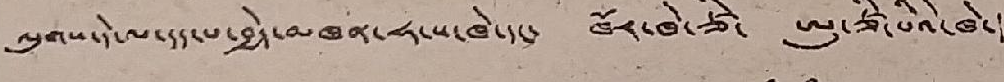ལུགས་དེ་ལ་དད་པ་བྱེད་མཁན་ཧ་ས་ཁེ་དང་ ཁོར་ཁེ་ཙེ་ ཨུ་ཙི་པིའི་ཁེ་
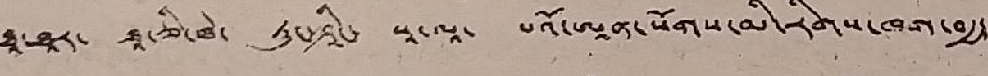ཐཱ་ཐཱར་ ཐཱ་ཅི་ཁེ་ ཏུང་ཤིང་ སཱ་ལཱ་ པའོ་ཨཱན་སོགས་མི་རིགས་ཁག་བརྒྱད་
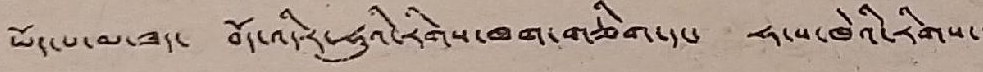ཡོད་པ་མ་ཟད་ བོད་འདིར་ཧུའི་རིགས་ཁག་གཅིག་དང་ ཧ་ས་ཁེའི་རིགས་་་
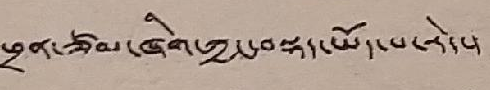ཕྲན་ཙམ་ཞིག་ཀྱང་བསྡད་ཡོད་པ་རེད་།
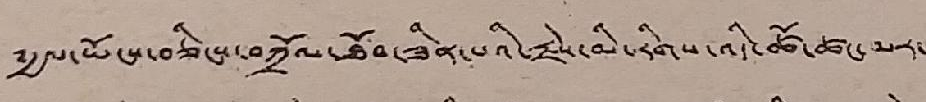༸རྒྱལ་ཡོངས་བཅིངས་བཀྲོལ་ཐོབ་ཟིན་པའི་རྗེས་མི་རིགས་འདི་ཚོ་ཚང་མར་
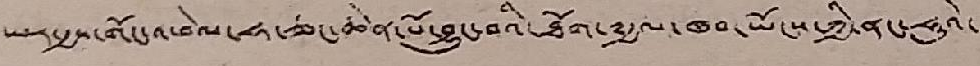ཡར་རྒྱས་གོང་འཕེལ་ཧ་ཅང་ཆེན་པོ་བྱུང་བའི་ཐོག་༸རྒྱལ་ཁབ་ཡོངས་ཀྱི་ནང་ཧུའེ་
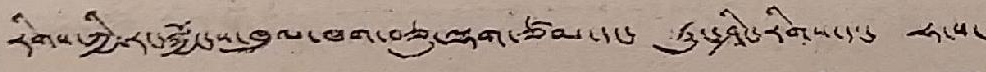རིགས་ཀྱི་རང་སྐྱོངས་ཁུལ་ཁག་བཅུ་ལྷག་ཙམ་དང་ ཏུང་ཤིང་རིགས་དང་ ཧ་ས་
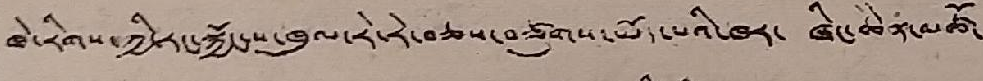ཁེ་རིགས་ཀྱི་རང་སྐྱོང་ས་ཁུལ་རེ་རེ་བཅས་བཙུགས་ཡོད་པའི་ཁར་ ཞིང་ཆེན་མཚོ་
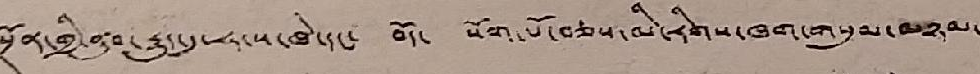སྔོན་གྱི་ནུབ་རྒྱུད་དུ་ཧ་ས་ཁེ་དང་ བོད་ སོག་པོ་བཅས་མི་རིགས་ཁག་གསུམ་མཉམ་
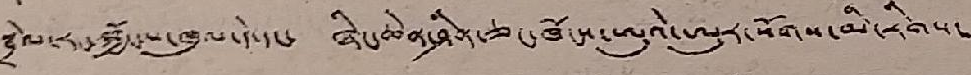སྦྲེལ་རང་སྐྱོང་ས་ཁུལ་དེ་དང་ ཞིང་ཆེན་ཤིན་ཅང་ཁོངས་ཨུའེ་ཨུར་སོགས་མི་རིགས་
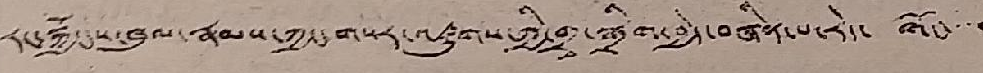རང་སྐྱོང་ས་ཁུལ་རྣམས་ཀྱང་གསར་འཛུགས་ཀྱི་གྲྭ་སྒྲིག་བྱེད་བཞིན་པ་རེད་ གོང་་་་
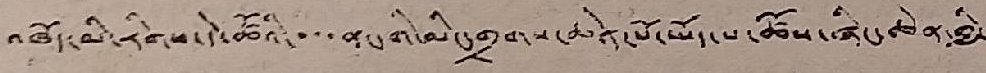འཁོད་མི་རིགས་དེ་ཚོའི་་་ནང་གི་མིང་གྲགས་ཆེན་པོ་ཡོད་པ་ཚོས་ཞིང་ཆེན་གྱི་
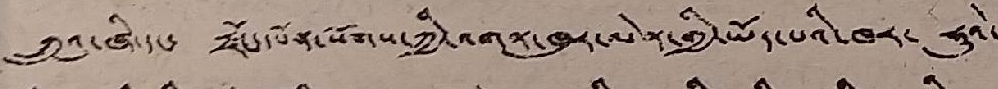ཀྲུའུ་ཞི་དང་ རྫོང་དཔོན་སོགས་ཀྱི་འགན་ཁུར་ལེན་གྱི་ཡོད་པའི་ཁར་ ཧུའེ་
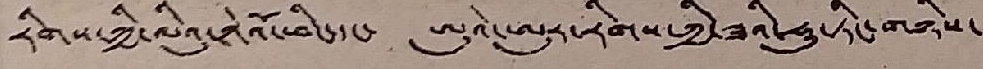རིགས་ཀྱི་ལིའུ་ཀེའོ་ཕིང་དང་ ཨུའེ་ཨུར་རིགས་ཀྱི་ཟའི་ཧུ་ཏིང་གཉིས་
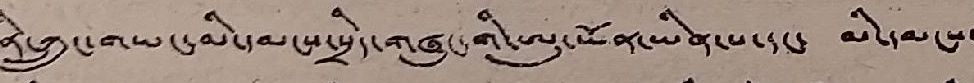ནི་ཀྲུང་གཡང་མི་དམངས་སྲིད་གཞུང་གི་ཨུ་ཡོན་ཡིན་པ་དང་ མི་དམངས་
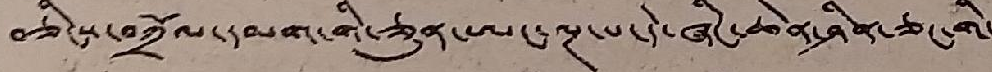བཅིངས་བཀྲོལ་དམག་གི་ཅུན་ཨང་ལྔ་པ་དེ་ཞིང་ཆེན་ཤིན་ཅང་གི་
